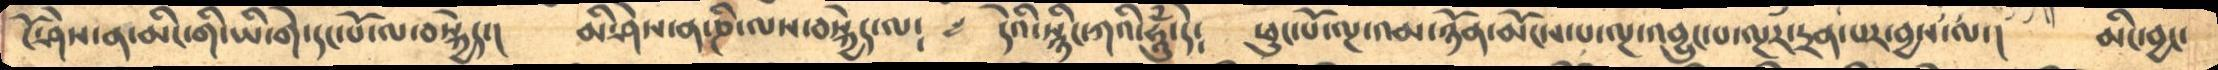ངོ་ཤེས་ན་མིང་གི་ཡི་གེ་དང་པོ་ལ་བསྐྱེད་།      མི་ཤེས་ན་ཎི་ལས་བསྐྱེད་ལ༴     དེའི་སྙིང་ཀའི་ཧཱུཾ་དེ༴    ཕུང་པོ་ལྔ་འམ་ཉོན་མོངས་པ་ལྔ་འབྱུང་པ་ལྔར་དྲན་པར་བྱས་ལ་།   མིང་བྱང་
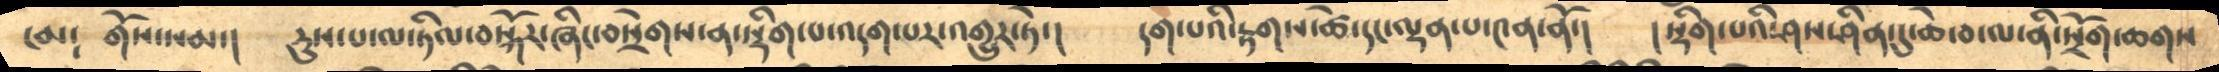ངམ༴    གོས་སམ་།     རུས་པ་ལ་ཏིལ་བསྐོར་ཞིང་བསྲེགས་ན་སྡིག་པ་འདག་པར་འགྱུར་ཏེ་།     དག་པའི་རྟགས་ཚེ་དང་ལྡན་པ་༤ན་ནོ་།   །སྡིག་པའི་ཤས་ཤིན་དུ་ཆེ་བ་ལ་ནི་སྲོག་ཆགས
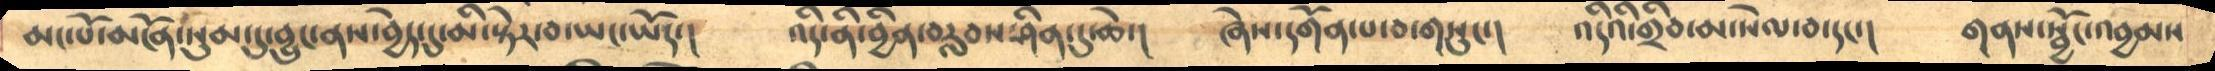མང་པོ་མངོན་སུམ་དུ་བྱུང་ནས་བྱེད་དུ་མི་སྟེར་བ་ཡང་ཡོད་།    འདི་ནི་བྱིན་བརླབ་ཤིན་དུ་ཆེ་།    ཞེས་དགོན་པ་བ་གསུང་།    འདིའི་གྲིབ་མ་སེལ་བ་དང་།    གནས་སྦྱོང་འབྱམས
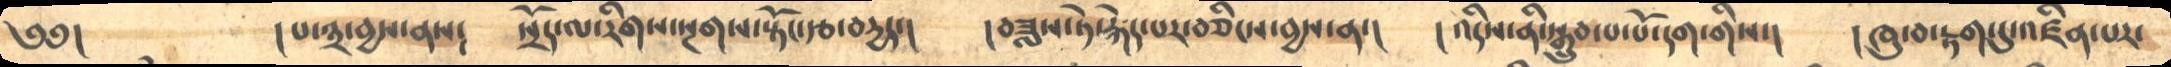༄༅།          །པ་༣་བྱས་ནས༴     སྲོད་ལ་རིགས་སྔགས་སྟོང་རྩ་བདྱད་།    །བཟླས་ཏེ་རྐེད་པར་བཅིངས་བྱས་ན་།   །འདིས་ནི་སྒྲུབ་པ་པོ་དག་གིས་།   །ཁུ་བ་རྟག་དུ་འཛིན་པར་
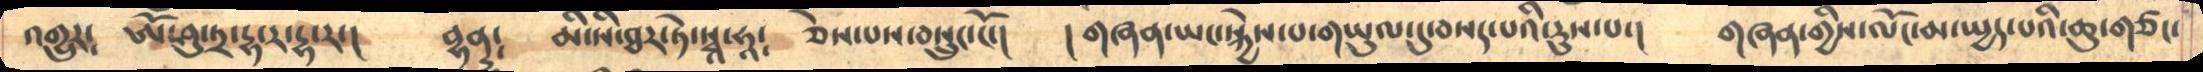འགྱུར༴   ཨོཾ་ཤུ་ཏྲ་དྷ་ར་དྷ་ར་།    བྷནྡ༴    མི་སི་ཐར་ཏེ་སྭཱ་ཧཱ༴   ཅེས་པས་བསྲུང་ངོ་།   །གཞན་ཡང་སྐྱེས་པ་གཡུལ་དུ་བསད་པའི་རུས་པ་།   གཞན་གྱིས་ལོང་མ་སྤྱད་པའི་ཆུ་གཙང་
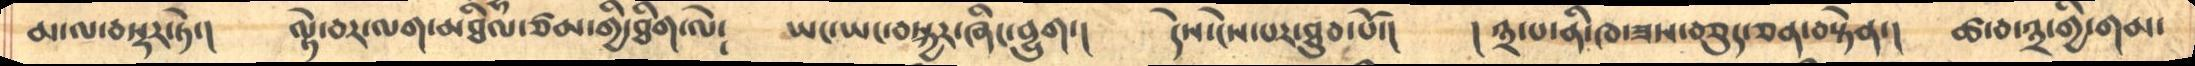མ་ལ་བསྟར་ཏེ་།     ལྟེ་བར་ལག་མཐིལ་ཙམ་གྱི་ཐིག་ལེ༴     ཡང་ཡང་བསྐྱར་ཞིང་བྱུག་།   དེས་ངེས་པར་ཐུབ་པོ་།   །༣་པ་ནི་ཁ་ཟས་བཅུད་ཅན་བསྟེན་།   ཚ་བ་༣་གྱི་གམ་
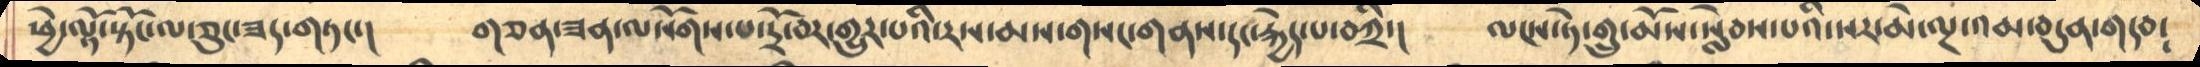ཕྱེ་ལྟོ་སྟོང་ལ་ཅུང་ཟད་གཏང་།     གཅན་ཟན་ལསོགས་པ་དྲོ་བར་གྱུར་པའི་རས་མས་གསང་གནས་དང་རྐྱེད་པ་བཀྲི་།    ལངས་ཏེ་གྲུ་མོས་སླེབས་པའི་སར་མེ་ལྔ་འམ་བདུན་གདབ༴
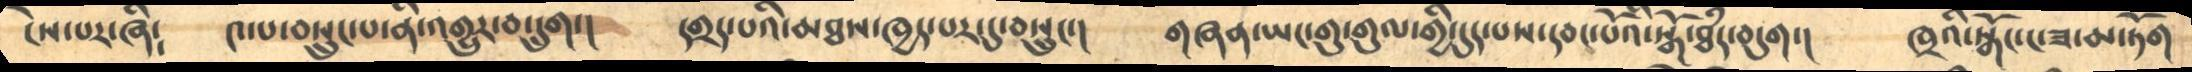ངེས་པར་ཞི༴    ༤་པ་བསྲུང་པ་ནི་འགྱུར་བ་དྲུག་།   དགྲད་པའི་མཐས་ཁྱད་པར་དུ་བསྲུང་།    གཞན་ཡང་གུ་གུལ་གྱི་དུད་པས་དབང་པོའི་སྒོ་ཐཾད་བདུག་།    ཁྲའི་སྒོང་ང་ཟ་མ་ཏོག
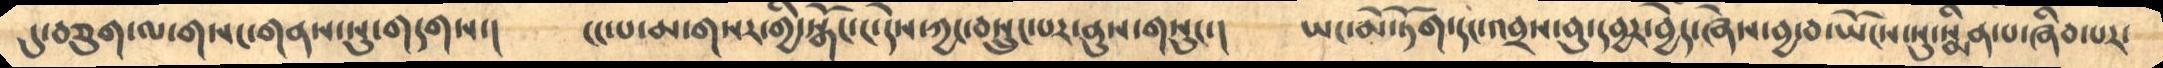དུ་བཅུག་ལ་གསང་གནས་སུ་གདགས་།    ངང་པ་མ་གསང་གྱི་སྒོང་ང་དེས་ཀྱང་བསྲུང་པར་ནུས་གསུང་།   ཡང་མེ་ཏོག་དང་འབྲས་བུ་དབྱར་བྱེད་ཞེས་བྱ་བ་ཡོངས་སུ་སྨིན་པ་ཞིབ་པར་
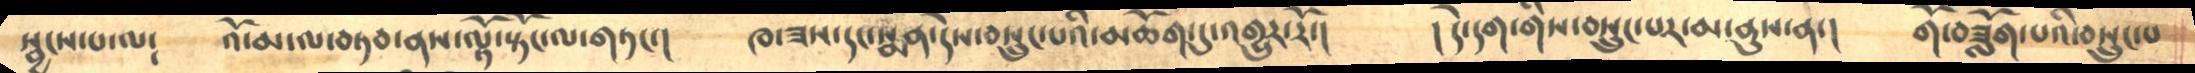སྦྱངས་པ་ལ༴    འོ་མ་ལ་བཏབ་ནས་ལྟོ་སྟོང་ལ་གཏང་།     ཁ་ཟས་དང་སྨན་དེས་བསྲུང་པའི་མཆོག་དུ་འགྱུར་རོ་།    །དེ་དག་གིས་བསྲུང་པར་མ་ནུས་ན་།   གོ་བཟློག་པའི་བསྲུང་པ
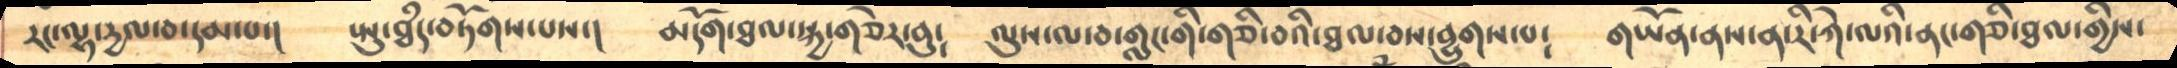རང་ལྷ་དྱལ་བ་དམ་པ་།    སྤུ་ཐཾད་བཏོགས་པས་།    མདོག་ཐལ་སྐྱ་གཅེར་བུ༴    ལུས་ལ་བ་གླང་གི་གཅི་བའི་ཐལ་བས་བྱུགས་པ༴    གཡོན་ནས་ན་རི་ཀེ་ལའི་ནང་གཅི་ཐལ་གྱིས་
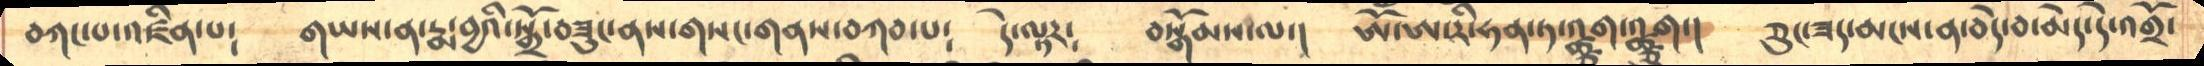བཀང་པ་འཛིན་པ༴     གཡས་ན་རྨ་བྱའི་སྒྲོ་བཟུང་ནས་གསང་གནས་བཀབ་པ༴   དེ་ལྟར༴   བསྒོམས་ལ་།   ཨོཾ་ཨ་རི་ཧན་ཏ་འགྪྩ་འགྪྩ་།     ཅུང་ཟད་མངས་ན་བདེ་བ་མེད་དེ་འགྲོ་
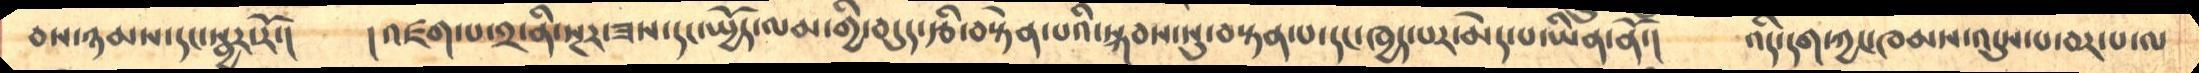བས་ཉམས་དང་སྦྱར་རོ་།      །འཛག་པ་༢་ནི་སྔར་ཟས་དང་སྤྱོད་ལམ་གྱི་བདུད་རྩི་བསྟེན་པའི་སྐབས་སུ་བསྟན་པ་དང་ཁྱད་པར་མེད་པ་ཡིན་ནོ་།    འདི་དག་ཀྱང་ཁམས་འདུས་པ་བར་པ་ལ
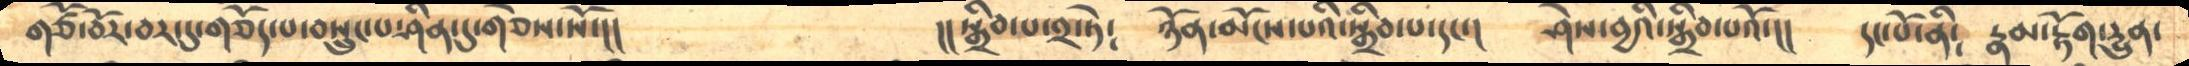གཙོ་བོར་བར་དུ་གཅོད་པ་བསྲུང་པ་ཤིན་དུ་གཅེས་སོ་།།            །།སྒྲིབ་པ་༢་ཏེ༴   ཉོན་མོངས་པའི་སྒྲིབ་པ་དང་།   ཤེས་བྱའི་སྒྲིབ་པའོ་།།   དང་པོ་ནི༴   རྣམ་རྟོག་དྱུན་
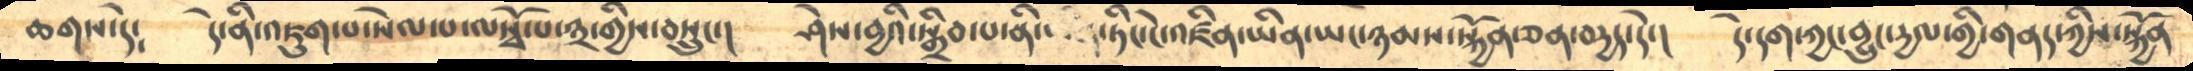ཆགས་དེ༴     དེ་ནི་འཇུག་པ་སེལ་པ་ལསྭོ་པ་༣་གྱིས་བསྲུང་།    ཤེས་བྱའི་སྒྲིབ་པ་ནི་  ཏིང་ངེ་འཛིན་ཡིན་ཡང་ཉམས་སྐྱོན་ཅན་བདྱད་དེ་།   དེ་དག་ཀྱང་བྱུང་དྱལ་གྱི་གནད་ཀྱིས་སྐྱོན
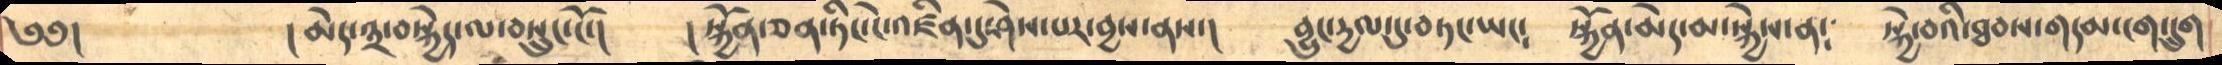༄༅།        །མེད་༣་བསྐྱེད་ལ་བསྲུང་ངོ་།    །སྐྱོན་ཅན་ཏིང་ངེ་འཛིན་དུ་ཤེས་པར་བྱས་ནས་།     བྱུང་དྱལ་དུ་བཏང་ཡང༴    སྐྱོན་མེད་མ་སྐྱེས་ན༴   སྐྱེ་བའི་ཐབས་གདམ་ངག་དྲུག
